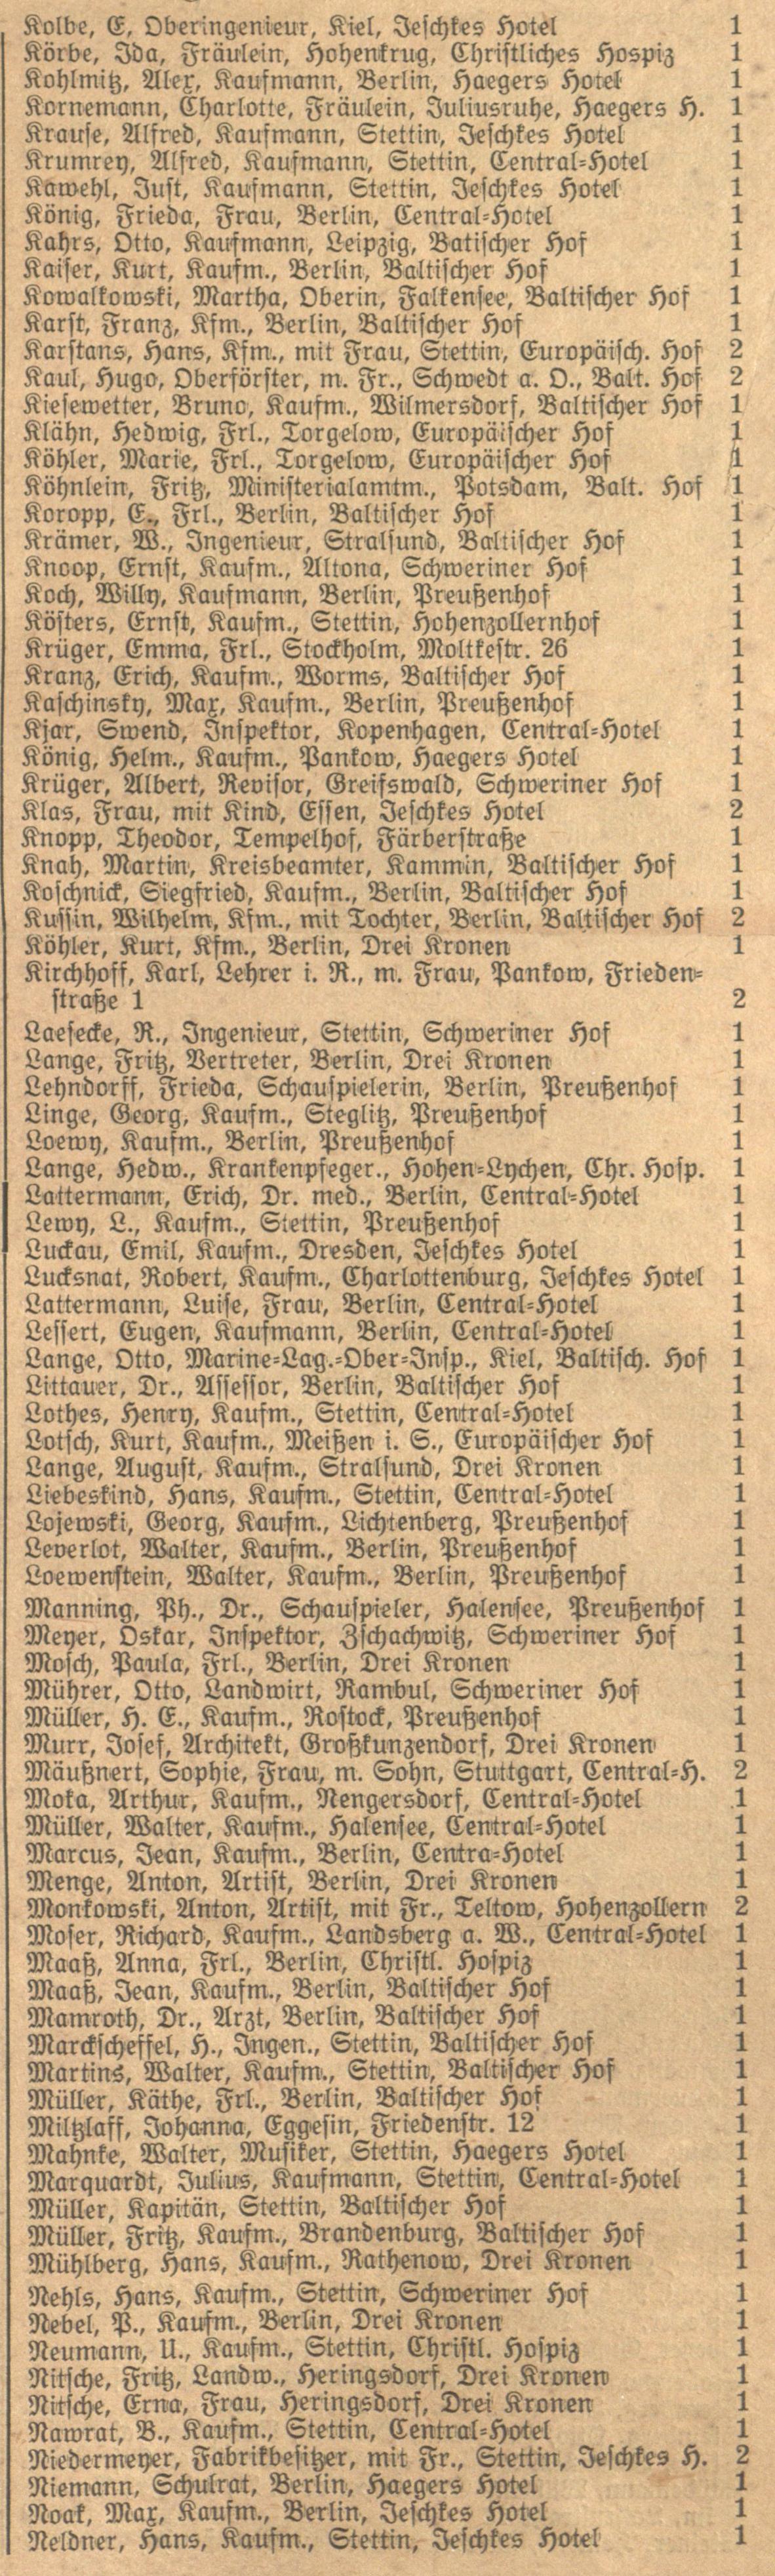Kolbe, E, Oberingenieur, Kiel, Jeschkes Hotel | 1
Körbe, Ida, Fräulein, Hohenkrug, Christliches Hospiz | 1
Kohlmitz, Alex, Kaufmann, Berlin, Haegers Hotel | 1
Kornemann, Charlotte, Fräulein, Juliusruhe, Haegers H. | 1
Krause, Alfred, Kaufmann, Stettin, Jeschkes Hotel | 1
Krumrey, Alfred, Kaufmann, Stettin, Central=Hotel | 1
Kawehl, Just, Kaufmann, Stettin, Jeschkes Hotel | 1
König, Frieda, Frau, Berlin, Central=Hotel | 1
Kahrs, Otto, Kaufmann, Leipzig, Baltischer Hof | 1
Kaiser, Kurt, Kaufm., Berlin, Baltischer Hof | 1
Kowalkowski, Martha, Oberin, Falkensee, Baltischer Hof | 1
Karst, Franz, Kfm., Berlin, Baltischer Hof | 1
Karstans, Hans, Kfm., mit Frau, Stettin, Europäisch. Hof | 2
Kaul, Hugo, Oberförster, m. Fr., Schwedt a. O., Balt. Hof | 2
Kiesewetter, Bruno, Kaufm., Wilmersdorf, Baltischer Hof | 1
Klähn, Hedwig, Frl., Torgelow, Europäischer Hof | 1
Köhler, Marie, Frl., Torgelow, Europäischer Hof | 1
Köhnlein, Fritz, Ministerialamtm., Potsdam, Balt. Hof | 1
Koropp, E., Frl., Berlin, Baltischer Hof | 1
Krämer, W., Ingenieur, Stralsund, Baltischer Hof | 1
Knopp, Ernst, Kaufm., Altona, Schweriner Hof | 1
Koch, Willy, Kaufmann, Berlin, Preußenhof | 1
Kösters, Ernst, Kaufm., Stettin, Hohenzollernhof | 1
Krüger, Emma, Frl., Stockholm, Moltkestr. 26 | 1
Kranz, Erich, Kaufm., Worms, Baltischer Hof | 1
Kaschinsky, Max, Kaufm., Berlin, Preußenhof | 1
Kjar, Swend, Inspektor, Kopenhagen, Central=Hotel | 1
König, Helm., Kaufm., Pankow, Haegers Hotel | 1
Krüger, Albert, Revisor, Greifswald, Schweriner Hof | 1
Klas, Frau, mit Kind, Essen, Jeschkes Hotel | 2
Knopp, Theodor, Tempelhof, Färberstraße | 1
Knah, Martin, Kreisbeamter, Kammin, Baltischer Hof | 1
Koschnick, Siegfried, Kaufm., Berlin, Baltischer Hof | 1
Kussin, Wilhelm, Kfm., mit Tochter, Berlin, Baltischer Hof | 2
Köhler, Kurt, Kfm., Berlin, Drei Kronen | 1
Kirchhoff, Karl, Lehrer i. R., m. Frau, Pankow, Frieden=
straße 1 | 2
Laesecke, R., Ingenieur, Stettin, Schweriner Hof | 1
Lange, Fritz, Vertreter, Berlin, Drei Kronen | 1
Lehndorff, Frieda, Schauspielerin, Berlin, Preußenhof | 1
Linge, Georg, Kaufm., Steglitz, Preußenhof | 1
Loewy, Kaufm., Berlin, Preußenhof | 1
Lange, Hedw., Krankenpfeger., Hohen=Lychen, Chr. Hosp. | 1
Lattermann, Erich, Dr. med., Berlin, Central=Hotel | 1
Lewy, L., Kaufm., Stettin, Preußenhof | 1
Luckau, Emil, Kaufm., Dresden, Jeschkes Hotel | 1
Lucksnat, Robert, Kaufm., Charlottenburg, Jeschkes Hotel | 1
Lattermann, Luise, Frau, Berlin, Central=Hotel | 1
Lessert, Eugen, Kaufmann, Berlin, Central=Hotel | 1
Lange, Otto, Marine=Lag.=Ober=Insp., Kiel, Baltisch. Hof | 1
Littauer, Dr., Assessor, Berlin, Baltischer Hof | 1
Lothes, Henry, Kaufm., Stettin, Central=Hotel | 1
Lotsch, Kurt, Kaufm., Meißen i. S., Europäischer Hof | 1
Lange, August, Kaufm., Stralsund, Drei Kronen | 1
Liebeskind, Hans, Kaufm., Stettin, Central=Hotel | 1
Lojewski, Georg, Kaufm., Lichtenberg, Preußenhof | 1
Leverlot, Walter, Kaufm., Berlin, Preußenhof | 1
Loewenstein, Walter, Kaufm., Berlin, Preußenhof | 1
Manning, Ph., Dr., Schauspieler, Halensee, Preußenhof | 1
Meyer, Oskar, Inspektor, Zschachwitz, Schweriner Hof | 1
Mosch, Paula, Frl., Berlin, Drei Kronen | 1
Mührer, Otto, Landwirt, Rambul, Schweriner Hof | 1
Müller, H. E., Kaufm., Rostock, Preußenhof | 1
Murr, Josef, Architekt, Großkunzendorf, Drei Kronen | 1
Mäußnert, Sophie, Frau, m. Sohn, Stuttgart, Central=H. | 2
Moka, Arthur, Kaufm., Nengersdorf, Central=Hotel | 1
Müller, Walter, Kaufm., Halensee, Central=Hotel | 1
Marcus, Jean, Kaufm., Berlin, Central=Hotel | 1
Menge, Anton, Artist, Berlin, Drei Kronen | 1
Monkowski, Anton, Artist, mit Fr., Teltow, Hoehnzollern | 2
Moser, Richard, Kaufm., Landsberg a. W., Central=Hotel | 1
Maaß, Anna, Frl., Berlin, Christl. Hospiz | 1
Maaß, Jean, Kaufm., Berlin, Baltischer Hof | 1
Mamroth, Dr., Arzt, Berlin, Baltischer Hof | 1
Marckscheffel, H., Ingen., Stettin, Baltischer Hof | 1
Martins, Walter, Kaufm., Stettin, Baltischer Hof | 1
Müller, Käthe, Frl., Berlin, Baltischer Hof | 1
Miltzlaff, Johanna, Eggesin, Friedenstr. 12 | 1
Mahnke, Walter, Musiker, Stettin, Haegers Hotel | 1
Marquardt, Julius, Kaufmann, Stettin, Central=Hotel | 1
Müller, Kapitän, Stettin, Baltischer Hof | 1
Müller, Fritz, Kaufm., Brandenburg, Baltischer Hof | 1
Mühlberg, Hans, Kaufm., Rathenow, Drei Kronen | 1
Nehls, Hans, Kaufm., Stettin, Schweriner Hof | 1
Nebel, P., Kaufm., Berlin, Drei Kronen | 1
Neumann, U., Kaufm., Stettin, Christl. Hospiz | 1
Nitsche, Fritz, Landw., Heringsdorf, Drei Kronen | 1
Nitsche, Erna, Frau, Heringsdorf, Drei Kronen | 1
Nawrat, B., Kaufm., Stettin, Central=Hotel | 1
Niedermeyer, Fabrikbesitzer, mit Fr., Stettin, Jeschkes H. | 2
Niemann, Schulrat, Berlin, Haegers Hotel | 1
Noak, Max, Kaufm., Berlin, Jeschkes Hotel | 1
Neldner, Hans, Kaufm., Stettin, Jeschkes Hotel | 1
